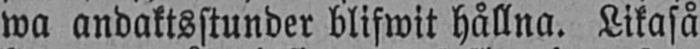wa andaktsstunder blifwit hållna. Likaså
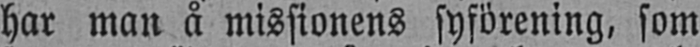har man å missionens syförening, som
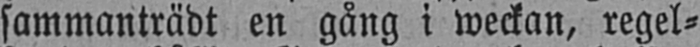sammanträdt en gång i weckan, regel-
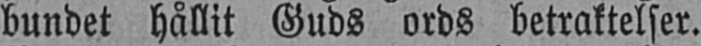bundet hållit Guds ords betraktelser.
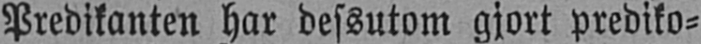Predikanten har dessutom gjort prediko-
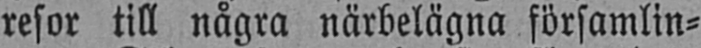resor till några närbelägna församlin-
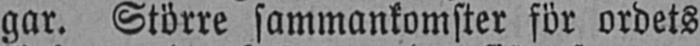gar. Större sammankomster för ordets
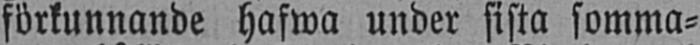förkunnande hafwa under sista somma-
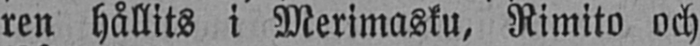ren hållits i Merimasku, Kimito och
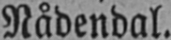Nådendal.
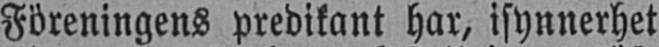Föreningens predikant har, isynnerhet
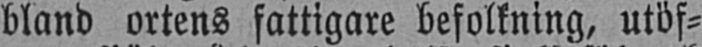bland ortens fattigare befolkning, utöf-
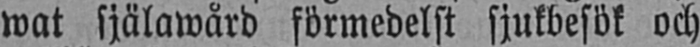wat själawård förmedelst sjukbesök och
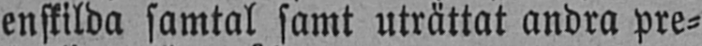enskilda samtal samt uträttat andra pre-
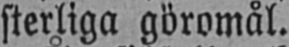sterliga göromål.
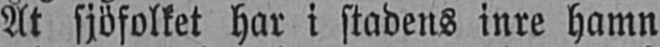Åt sjöfolket har i stadens inre hamn
